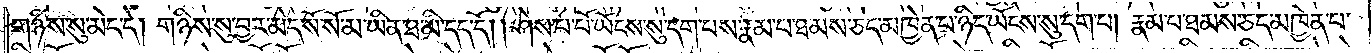གཉིས་སུ་མེད་དེ། གཉིས་སུ་བྱར་མེད་སོ་སོ་མ་ཡིན་ཐ་མི་དད་དོ། །ཤེས་པ་པོ་ཡོངས་སུ་དག་པས་རྣམ་པ་ཐམས་ཅད་མཁྱེན་པ་ཉིད་ཡོངས་སུ་དག་པ། རྣམ་པ་ཐམས་ཅད་མཁྱེན་པ་
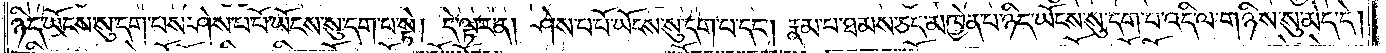ཉིད་ཡོངས་སུ་དག་པས་ཤེས་པ་པོ་ཡོངས་སུ་དག་པ་སྟེ། དེ་ལྟར་ན། ཤེས་པ་པོ་ཡོངས་སུ་དག་པ་དང༌། རྣམ་པ་ཐམས་ཅད་མཁྱེན་པ་ཉིད་ཡོངས་སུ་དག་པ་འདི་ལ་གཉིས་སུ་མེད་དེ།
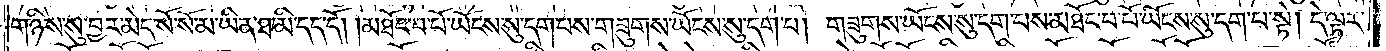གཉིས་སུ་བྱར་མེད་སོ་སོ་མ་ཡིན་ཐ་མི་དད་དོ། །མཐོང་བ་པོ་ཡོངས་སུ་དག་པས་གཟུགས་ཡོངས་སུ་དག་པ། གཟུགས་ཡོངས་སུ་དག་པས་མཐོང་བ་པོ་ཡོངས་སུ་དག་པ་སྟེ། དེ་ལྟར་
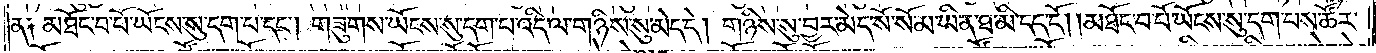ན༑ མཐོང་བ་པོ་ཡོངས་སུ་དག་པ་དང༌། གཟུགས་ཡོངས་སུ་དག་པ་འདི་ལ་གཉིས་སུ་མེད་དེ། གཉིས་སུ་བྱར་མེད་སོ་སོ་མ་ཡིན་ཐ་མི་དད་དོ། །མཐོང་བ་པོ་ཡོངས་སུ་དག་པས་ཚོར་
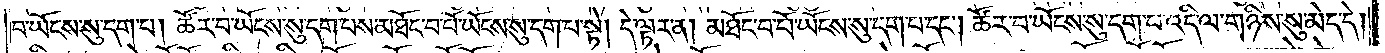བ་ཡོངས་སུ་དག་པ། ཚོར་བ་པོ་ཡོངས་སུ་དག་པས་མཐོང་བ་པོ་ཡོངས་སུ་དག་པ་སྟེ། དེ་ལྟར་ན། མཐོང་བ་པོ་ཡོངས་སུ་དག་པ་དང༌། ཚོར་བ་ཡོངས་སུ་དག་པ་འདི་ལ་གཉིས་སུ་མེད་དེ།
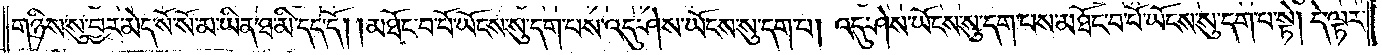གཉིས་སུ་བྱར་མེད་སོ་སོ་མ་ཡིན་ཐ་མི་དད་དོ། །མཐོང་བ་པོ་ཡོངས་སུ་དག་པས་འདུ་ཤེས་ཡོངས་སུ་དག་པ། འདུ་ཤེས་ཡོངས་སུ་དག་པས་མཐོང་བ་པོ་ཡོངས་སུ་དག་པ་དག་པ་སྟེ། དེ་ལྟར་
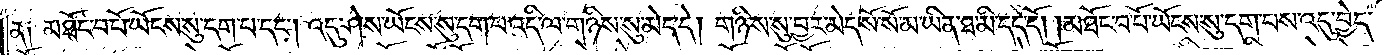ན༑ མཐོང་བ་པོ་ཡོངས་སུ་དག་པ་དང༌། འདུ་ཤེས་ཡོངས་སུ་དག་པ་འདི་ལ་གཉིས་སུ་མེད་དེ། གཉིས་སུ་བྱར་མེད་སོ་སོ་མ་ཡིན་ཐ་མི་དད་དོ། །མཐོང་བ་པོ་ཡོངས་སུ་དག་པས་འདུ་བྱེད་
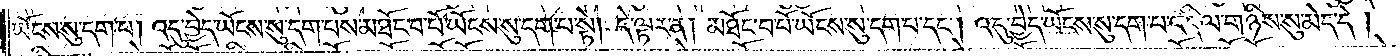ཡོངས་སུ་དག་པ། འདུ་བྱེད་ཡོངས་སུ་དག་པས་མཐོང་བ་པོ་ཡོངས་སུ་དག་པ་སྟེ། དེ་ལྟར་ན། མཐོང་བ་པོ་ཡོངས་སུ་དག་པ་དང༌། འདུ་བྱེད་ཡོངས་སུ་དག་པ་འདི་ལ་གཉིས་སུ་མེད་དེ།
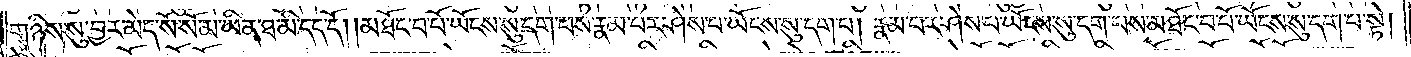གཉིས་སུ་བྱར་མེད་སོ་སོ་མ་ཡིན་ཐ་མི་དད་དོ། །མཐོང་བ་པོ་ཡོངས་སུ་དག་པས་རྣམ་པར་ཤེས་པ་ཡོངས་སུ་དག་པ། རྣམ་པར་ཤེས་པ་ཡོངས་སུ་དག་པས་མཐོང་བ་པོ་ཡོངས་སུ་དག་པ་སྟེ།
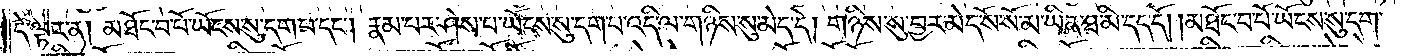དེ་ལྟར་ན། མཐོང་བ་པོ་ཡོངས་སུ་དག་པ་དང༌། རྣམ་པར་ཤེས་པ་ཡོངས་སུ་དག་པ་འདི་ལ་གཉིས་སུ་མེད་དེ། གཉིས་སུ་བྱར་མེད་སོ་སོ་མ་ཡིན་ཐ་མི་དད་དོ། །མཐོང་བ་པོ་ཡོངས་སུ་དག་
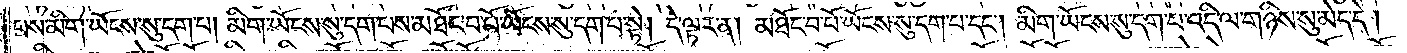པས་མིག་ཡོངས་སུ་དག་པ། མིག་ཡོངས་སུ་དག་པས་མཐོང་བ་པོ་ཡོངས་སུ་དག་པ་སྟེ། དེ་ལྟར་ན། མཐོང་བ་པོ་ཡོངས་སུ་དག་པ་དང༌། མིག་ཡོངས་སུ་དག་པ་འདི་ལ་གཉིས་སུ་མེད་དེ།
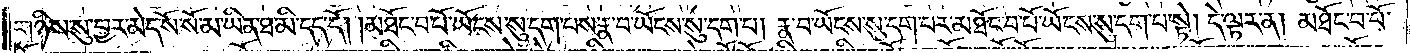གཉིས་སུ་བྱར་མེད་སོ་སོ་མ་ཡིན་ཐ་མི་དད་དོ། །མཐོང་བ་པོ་ཡོངས་སུ་དག་པས་རྣ་བ་ཡོངས་སུ་དག་པ། རྣ་བ་ཡོངས་སུ་དག་པར་མཐོང་བ་པོ་ཡོངས་སུ་དག་པ་སྟེ། དེ་ལྟར་ན། མཐོང་བ་པོ་
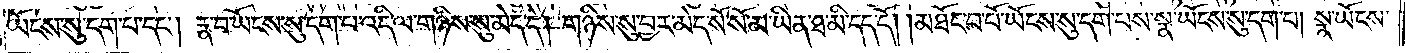ཡོངས་སུ་དག་པ་དང༌། རྣ་བ་ཡོངས་སུ་དག་པ་འདི་ལ་གཉིས་སུ་མེད་དེ། གཉིས་སུ་བྱར་མེད་སོ་སོ་མ་ཡིན་ཐ་མི་དད་དོ། །མཐོང་བ་པོ་ཡོངས་སུ་དག་པས་སྣ་ཡོངས་སུ་དག་པ། སྣ་ཡོངས་
